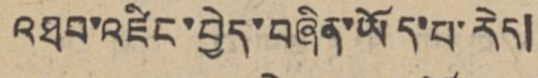འཐབ་འཛིང་བྱེད་བཞིན་ཡོད་པ་རེད།
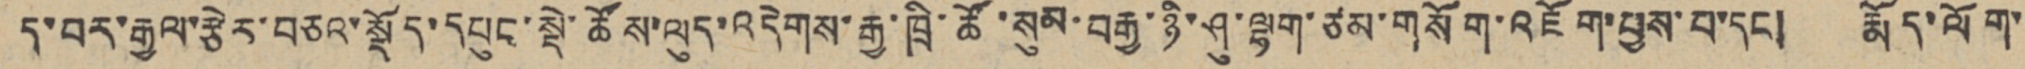ད་བར་རྒྱལ་རྩེར་བཅའ་སྡོད་དཔུང་སྡེ་ཚོས་ལུད་འདེགས་རྒྱ་ཁྲི་ཚོ་སུམ་བརྒྱ་ཉི་ཤུ་ལྷག་ཙམ་གསོག་འཇོག་བྱས་པ་དང། རྨོད་ལོག་་
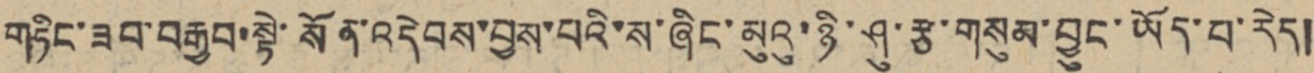གཏིང་ཟབ་བརྒྱབ་སྟེ་སོན་འདེབས་བྱས་པའི་ས་ཞིང་མུའུ་ཉི་ཤུ་རྩ་གསུམ་བྱུང་ཡོད་པ་རེད།
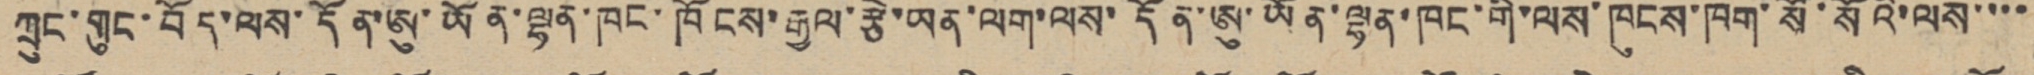ཀྲུང་གུང་བོད་ལས་དོན་ཨུ་ཡོན་ལྷན་ཁང་ཁོངས་རྒྱལ་རྩེ་ཡན་ལག་ལས་དོན་ཨུ་ཡོན་ལྷན་ཁང་གི་ལས་ཁུངས་ཁག་སོ་སོའི་ལས་་་་
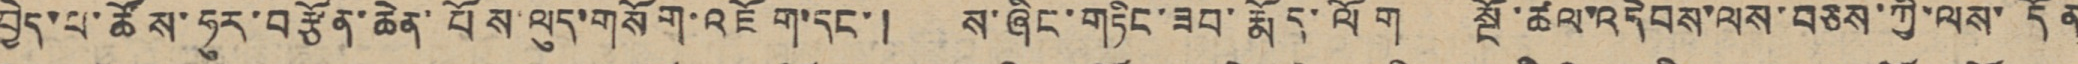བྱེད་པ་ཚོས་ཧུར་བརྩོན་ཆེན་པོས་ལུད་གསོག་འཇོག་དང་། ས་ཞིང་གཏིང་ཟབ་རྨོད་ལོག སྔོ་ཚལ་འདེབས་ལས་བཅས་ཀྱི་ལས་དོན
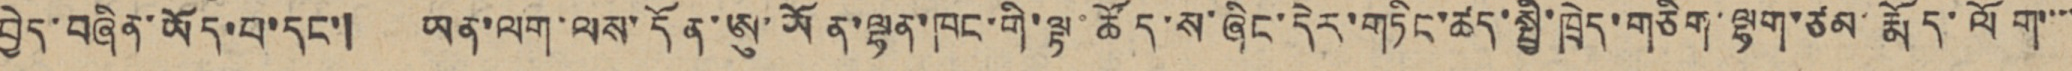བྱེད་བཞིན་ཡོད་པ་དང་། ཡན་ལག་ལས་དོན་ཨུ་ཡོན་ལྷན་ཁང་གི་ལྟ་ཚོད་ས་ཞིང་དེར་གཏིང་ཚད་སྤྱི་ཁྲེད་གཅིག་ལྷག་ཙམ་རྨོད་ལོག་་་་
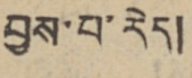བྱས་པ་རེད།
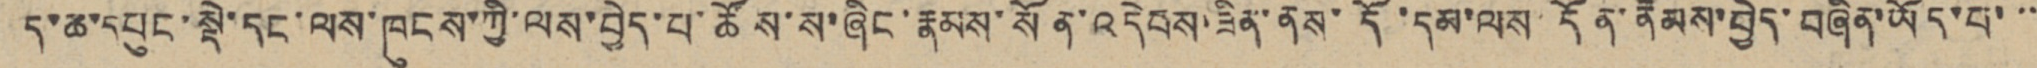ད་ཆ་དཔུང་སྡེ་དང་ལས་ཁུངས་ཀྱི་ལས་བྱེད་པ་ཚོས་ས་ཞིང་རྣམས་སོན་འདེབས་ཟིན་ནས་དོ་དམ་ལས་དོན་རྣམས་བྱེད་བཞིན་ཡོད་པ་་་
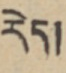རེད།
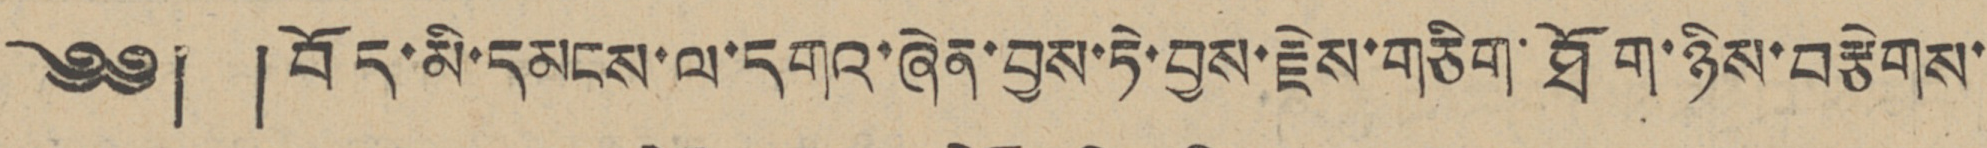༄༅། །བོད་མི་དམངས་ལ་དགའ་ཞེན་བྱས་ཏེ་བྱས་རྗེས་གཅིག་ཐོག་ཉིས་བརྩེགས་
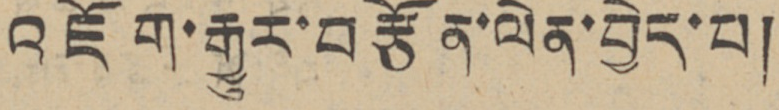འཇོག་རྒྱུར་བརྩོན་ལེན་བྱེད་པ།
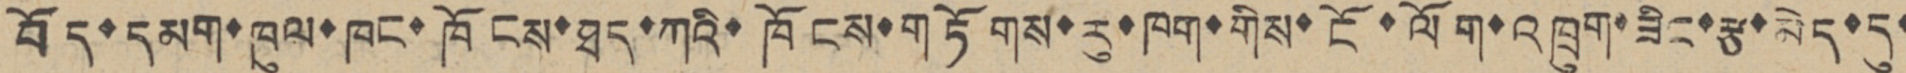བོད་དམག་ཁུལ་ཁང་ཁོངས་ཐད་ཀའི་ཁོངས་གཏོགས་རུ་ཁག་གིས་ངོ་ལོག་འཁྲུག་ཟིང་རྩ་མེད་དུ་
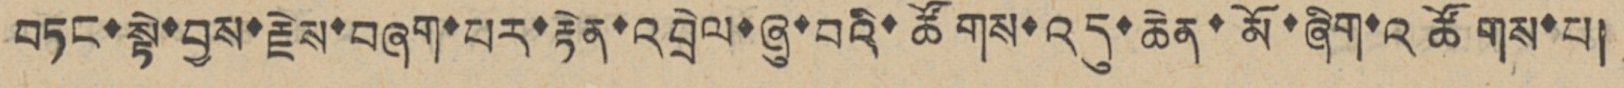བཏང་སྟེ་བྱས་རྗེས་བཞག་པར་རྟེན་འབྲེལ་ཞུ་བའི་ཚོགས་འདུ་ཆེན་མོ་ཞིག་འཚོགས་པ།
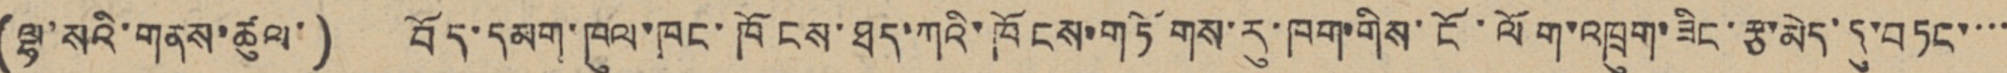(ལྷ་སའི་གནས་ཚུལ་) བོད་དམག་ཁུལ་ཁང་ཁོངས་ཐད་ཀའི་ཁོངས་གཏོགས་རུ་ཁག་གིས་ངོ་ལོག་འཁྲུག་ཟིང་རྩ་མེད་དུ་བཏང་་་་
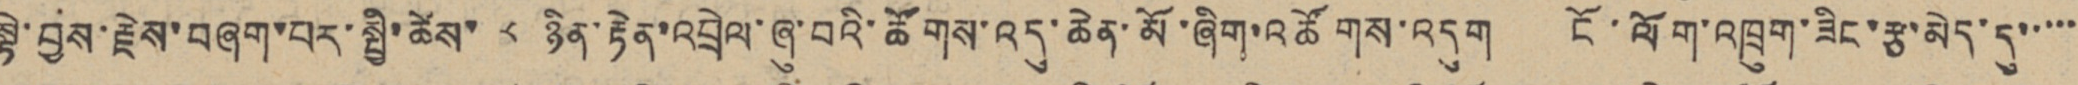སྟེ་བྱས་རྗེས་བཞག་པར་སྤྱི་ཚེས་ ༨ ཉིན་རྟེན་འབྲེལ་ཞུ་བའི་ཚོགས་འདུ་ཆེན་མོ་ཞིག་འཚོགས་འདུག ངོ་ལོག་འཁྲུག་ཟིང་རྩ་མེད་དུ་་་་་
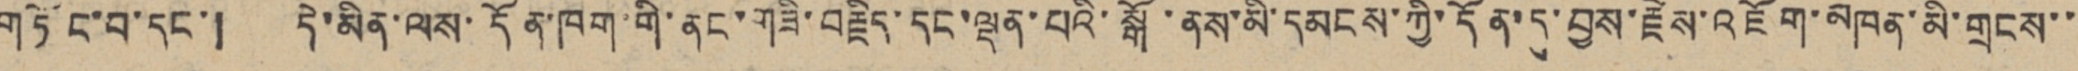གཏོང་བ་དང་། དེ་མིན་ལས་དོན་ཁག་གི་ནང་གཟི་བརྗིད་དང་ལྡན་པའི་སྒོ་ནས་མི་དམངས་ཀྱི་དོན་དུ་བྱས་རྗེས་འཇོག་མཁན་མི་གྲངས་་
